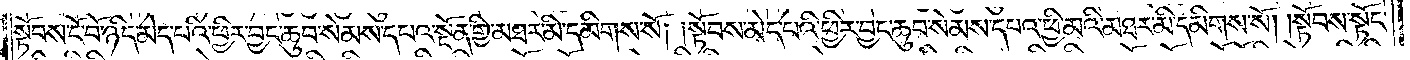སྟོབས་ངོ་བོ་ཉིད་མེད་པའི་ཕྱིར་བྱང་ཆུབ་སེམས་དཔའ་སྔོན་གྱི་མཐར་མི་དམིགས་སོ། །སྟོབས་མེད་པའི་ཕྱིར་བྱང་ཆུབ་སེམས་དཔའ་ཕྱི་མའི་མཐར་མི་དམིགས་སོ། །སྟོབས་སྟོང་
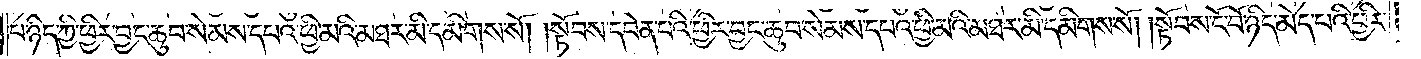པ་ཉིད་ཀྱི་ཕྱིར་བྱང་ཆུབ་སེམས་དཔའ་ཕྱི་མའི་མཐར་མི་དམིགས་སོ། །སྟོབས་དབེན་པའི་ཕྱིར་བྱང་ཆུབ་སེམས་དཔའ་ཕྱི་མའི་མཐར་མི་དམིགས་སོ། །སྟོབས་ངོ་བོ་ཉིད་མེད་པའི་ཕྱིར་
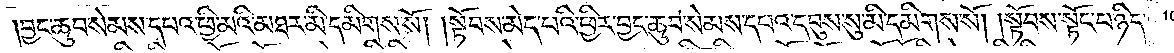བྱང་ཆུབ་སེམས་དཔའ་ཕྱི་མའི་མཐར་མི་དམིགས་སོ། །སྟོབས་མེད་པའི་ཕྱིར་བྱང་ཆུབ་སེམས་དཔའ་དབུས་སུ་མི་དམིགས་སོ། །སྟོབས་སྟོང་པ་ཉིད་
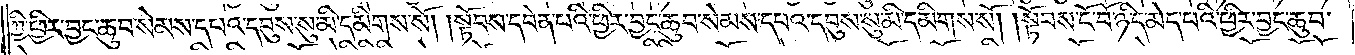ཀྱི་ཕྱིར་བྱང་ཆུབ་སེམས་དཔའ་དབུས་སུ་མི་དམིགས་སོ། །སྟོབས་དབེན་པའི་ཕྱིར་བྱང་ཆུབ་སེམས་དཔའ་དབུས་སུ་མི་དམིགས་སོ། །སྟོབས་ངོ་བོ་ཉིད་མེད་པའི་ཕྱིར་བྱང་ཆུབ་
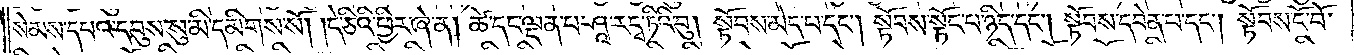སེམས་དཔའ་དབུས་སུ་མི་དམིགས་སོ། །དེ་ཅིའི་ཕྱིར་ཞེ་ན། ཚེ་དང་ལྡན་པ་ཤཱ་རདྭ་ཏིའི་བུ། སྟོབས་མེད་པ་དང༌། སྟོབས་སྟོང་པ་ཉིད་དང༌། སྟོབས་དབེན་པ་དང༌། སྟོབས་ངོ་བོ་
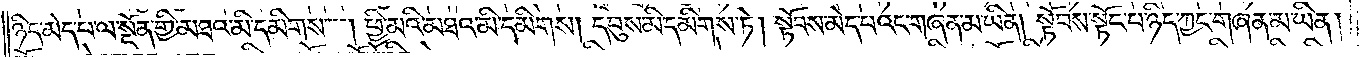ཉིད་མེད་པ་ལ་སྔོན་གྱི་མཐའ་མི་དམིགས། ཕྱི་མའི་མཐའ་མི་དམིགས། དབུས་མི་དམིགས་ཏེ། སྟོབས་མེད་པའང་གཞན་མ་ཡིན། སྟོབས་སྟོང་པ་ཉིད་ཀྱང་གཞན་མ་ཡིན།
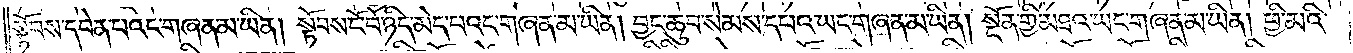སྟོབས་དབེན་པའང་གཞན་མ་ཡིན། སྟོབས་ངོ་བོ་ཉིད་མེད་པའང་གཞན་མ་ཡིན། བྱང་ཆུབ་སེམས་དཔའ་ཡང་གཞན་མ་ཡིན། སྔོན་གྱི་མཐའ་ཡང་གཞན་མ་ཡིན། ཕྱི་མའི་
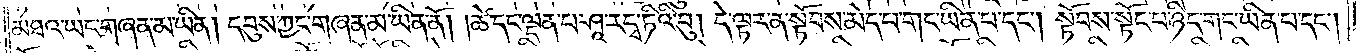མཐའ་ཡང་གཞན་མ་ཡིན། དབུས་ཀྱང་གཞན་མ་ཡིན་ནོ། །ཚེ་དང་ལྡན་པ་ཤཱ་རདྭ་ཏིའི་བུ། དེ་ལྟར་ན་སྟོབས་མེད་པ་གང་ཡིན་པ་དང༌། སྟོབས་སྟོང་པ་ཉིད་གང་ཡིན་པ་དང༌།
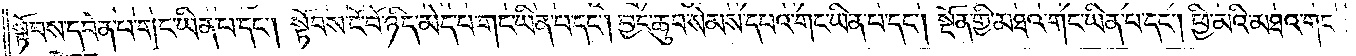སྟོབས་དབེན་པ་གང་ཡིན་པ་དང༌། སྟོབས་ངོ་བོ་ཉིད་མེད་པ་གང་ཡིན་པ་དང༌། བྱང་ཆུབ་སེམས་དཔའ་གང་ཡིན་པ་དང༌། སྔོན་གྱི་མཐའ་གང་ཡིན་པ་དང༌། ཕྱི་མའི་མཐའ་གང་
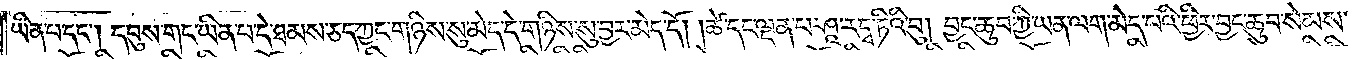ཡིན་པ་དང༌། དབུས་གང་ཡིན་པ་དེ་ཐམས་ཅད་ཀྱང་གཉིས་སུ་མེད་དེ་གཉིས་སུ་བྱར་མེད་དོ། །ཚེ་དང་ལྡན་པ་ཤཱ་རདྭ་ཏིའི་བུ། བྱང་ཆུབ་ཀྱི་ཡན་ལག་མེད་པའི་ཕྱིར་བྱང་ཆུབ་སེམས་
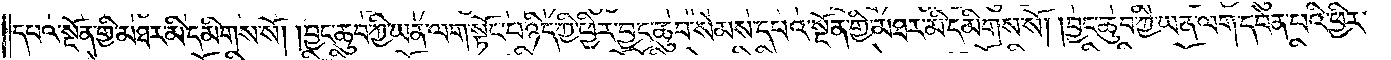དཔའ་སྔོན་གྱི་མཐར་མི་དམིགས་སོ། །བྱང་ཆུབ་ཀྱི་ཡན་ལག་སྟོང་པ་ཉིད་ཀྱི་ཕྱིར་བྱང་ཆུབ་སེམས་དཔའ་སྔོན་གྱི་མཐར་མི་དམིགས་སོ། །བྱང་ཆུབ་ཀྱི་ཡན་ལག་དབེན་པའི་ཕྱིར་
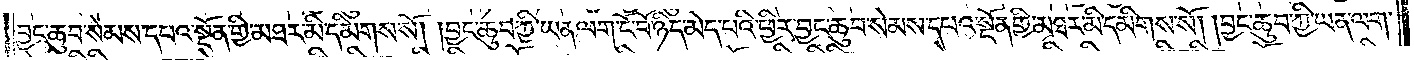བྱང་ཆུབ་སེམས་དཔའ་སྔོན་གྱི་མཐར་མི་དམིགས་སོ། །བྱང་ཆུབ་ཀྱི་ཡན་ལག་ངོ་བོ་ཉིད་མེད་པའི་ཕྱིར་བྱང་ཆུབ་སེམས་དཔའ་སྔོན་གྱི་མཐར་མི་དམིགས་སོ། །བྱང་ཆུབ་ཀྱི་ཡན་ལག་
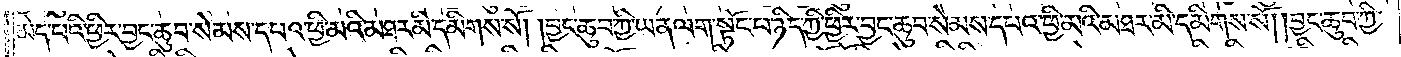མེད་པའི་ཕྱིར་བྱང་ཆུབ་སེམས་དཔའ་ཕྱི་མའི་མཐར་མི་དམིགས་སོ། །བྱང་ཆུབ་ཀྱི་ཡན་ལག་སྟོང་པ་ཉིད་ཀྱི་ཕྱིར་བྱང་ཆུབ་སེམས་དཔའ་ཕྱི་མའི་མཐར་མི་དམིགས་སོ། །བྱང་ཆུབ་ཀྱི་
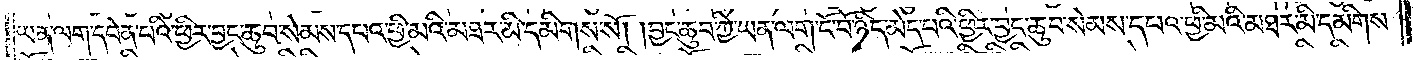ཡན་ལག་དབེན་པའི་ཕྱིར་བྱང་ཆུབ་སེམས་དཔའ་ཕྱི་མའི་མཐར་མི་དམིགས་སོ། །བྱང་ཆུབ་ཀྱི་ཡན་ལག་ངོ་བོ་ཉིད་མེད་པའི་ཕྱིར་བྱང་ཆུབ་སེམས་དཔའ་ཕྱི་མའི་མཐར་མི་དམིགས་
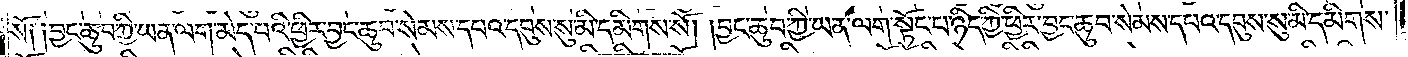སོ༑ ༑བྱང་ཆུབ་ཀྱི་ཡན་ལག་མེད་པའི་ཕྱིར་བྱང་ཆུབ་སེམས་དཔའ་དབུས་སུ་མི་དམིགས་སོ། །བྱང་ཆུབ་ཀྱི་ཡན་ལག་སྟོང་པ་ཉིད་ཀྱི་ཕྱིར་བྱང་ཆུབ་སེམས་དཔའ་དབུས་སུ་མི་དམིགས་
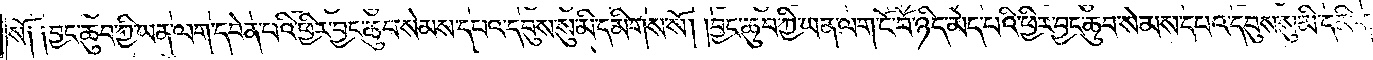སོ༑ ༑བྱང་ཆུབ་ཀྱི་ཡན་ལག་དབེན་པའི་ཕྱིར་བྱང་ཆུབ་སེམས་དཔའ་དབུས་སུ་མི་དམིགས་སོ། །བྱང་ཆུབ་ཀྱི་ཡན་ལག་ངོ་བོ་ཉིད་མེད་པའི་ཕྱིར་བྱང་ཆུབ་སེམས་དཔའ་དབུས་སུ་མི་དམིགས་
